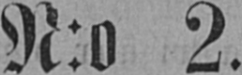N:o 2.
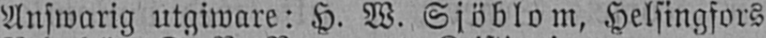Answarig utgiware: H. W. Sjöblom, Helsingfors
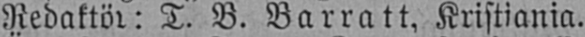Redaktör: T. B. Barratt, Kristiania.
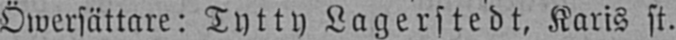Öwersättare: Tytty Lagerstedt, Karis st.
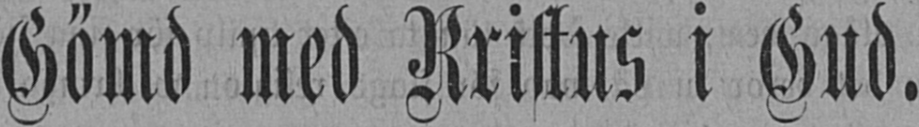Gömd med Kristus i Gud.
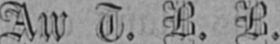Aw T. B. B.
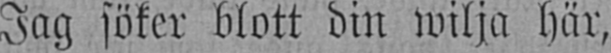Jag söker blott din wilja här,
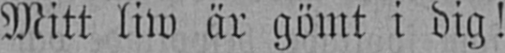Mitt liw är gömt i dig!
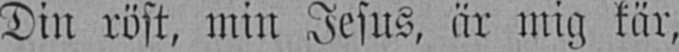Din röst, min Jesus, är mig kär,
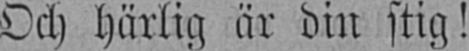Och härlig är din stig!
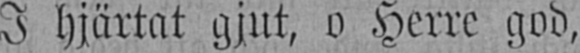I hjärtat gjut, o Herre god,
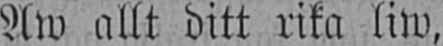Aw allt ditt rika liw,
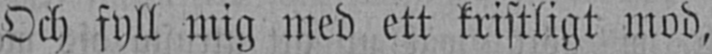Och fyll mig med ett kristligt mod,
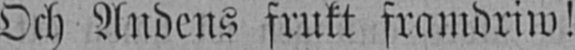Och Andens frukt framdriw!
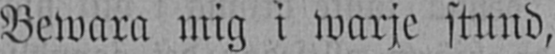Bewara mig i warje stund,
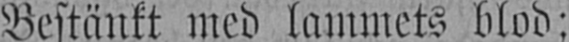Bestänkt med lammets blod;
